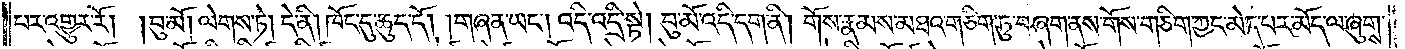པར་འགྱུར་རོ། །བུ་མོ། ལེགས་ཏེ། དེ་ནི། ཁོང་དུ་ཆུད་དོ། །གཞན་ཡང༌། འདི་འདྲི་སྟེ། བུ་མོ་འདི་དག་ནི། གོས་རྣམས་མཐའ་གཅིག་ཏུ་བཞག་ནས་གོས་གཅིག་ཀྱང་མེད་པར་མོད་ལ་ཞུགས་
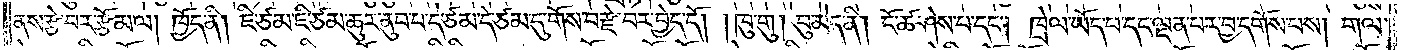ནས་རྩེ་བར་རྩོམ་ལ། ཁྱོད་ནི། ཇི་ཙམ་ཇི་ཙམ་ཆུར་ནུབ་པ་དེ་ཙམ་དེ་ཙམ་དུ་གོས་བརྫེ་བར་བྱེད་དོ། །ཁུ་གུ། བུ་མེད་ནི། ངོ་ཚ་ཤེས་པ་དང༌། ཁྲེལ་ཡོད་པ་དང་ལྡན་པར་བྱ་དགོས་ཕས། གལ་
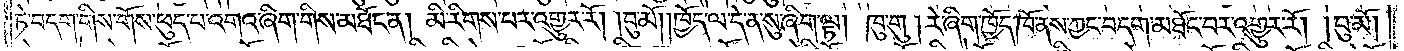ཏེ་བདག་གིས་གོས་ཕུད་པ་འགའ་ཞིག་གིས་མཐོང་ན། མི་རིགས་པར་འགྱུར་རོ། །བུ་མོ། ཁྱོད་ལ་དེ་ན་སུ་ཞིག་ལྟ། ཁུ་གུ། རེ་ཞིག་ཁྱོད་ཁོ་ནས་ཀྱང་བདག་མཐོང་བར་འགྱུར་རོ། །བུ་མོ།
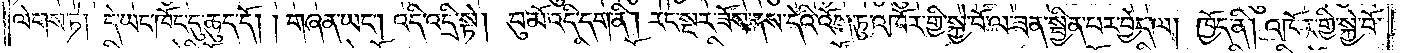ལེགས་ཏེ། དེ་ཡང་ཁོང་དུ་ཆུད་དོ། །གཞན་ཡང༌། འདི་འདྲི་སྟེ། བུ་མོ་འདི་དག་ནི། རང་སྔར་ཟོས་ནས་དེའི་འོག་ཏུ་འཁོར་གྱི་སྐྱེ་བོ་ལ་ཟན་སྦྱིན་པར་བྱེད་ལ། ཁྱོད་ནི། འཁོར་གྱི་སྐྱེ་བོ་
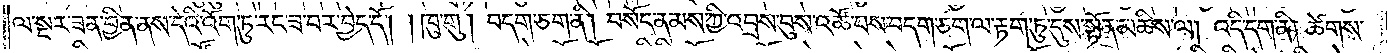ལ་སྔར་ཟན་བྱིན་ནས་དེའི་འོག་ཏུ་རང་ཟ་བར་བྱེད་དོ། །ཁུ་གུ། བདག་ཅག་ནི། བསོད་ནམས་ཀྱི་འབྲས་བུས་འཚོ་བས་བདག་ཅག་ལ་རྟག་ཏུ་དུས་སྟོན་མཆིས་ལ། འདི་དག་ནི། ཚེགས་
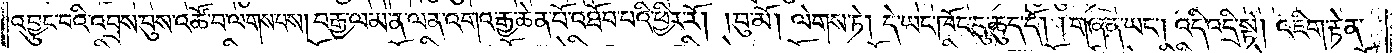འབྱུང་བའི་འབྲས་བུས་འཚོ་བ་ལགས་པས། བརྒྱ་ལམ་ན་ལན་འགའ་རྒྱ་ཆེན་པོ་འཐོབ་པའི་ཕྱིར་རོ། །བུ་མོ། ལེགས་ཏེ། དེ་ཡང་ཁོང་དུ་ཆུད་དོ། །གཞན་ཡང༌། འདི་འདྲི་སྟེ། འཇིག་རྟེན་
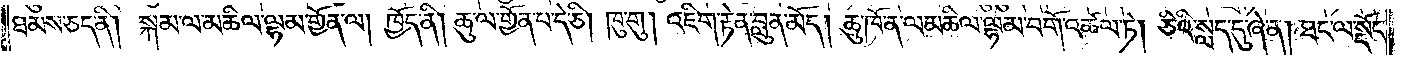ཐམས་ཅད་ནི། སྐམ་ལ་མཆིལ་ལྷམ་གྱོན་ལ། ཁྱོད་ནི། ཆུ་ལ་གྱོན་པ་དེ་ཅི། ཁུ་གུ། འཇིག་རྟེན་བླུན་མོད། ཆུ་ཁོ་ན་ལ་མཆིལ་ལྷམ་བགོ་འཚལ་ཏེ། ཅིའི་སླད་དུ་ཞེ་ན། ཐང་ལ་སྡོང་
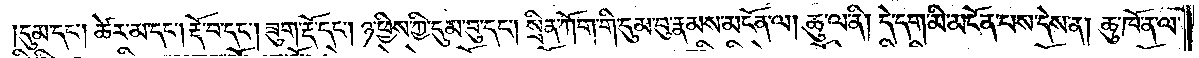དུམ་དང༌། ཚེར་མ་དང༌། རྡོ་བ་དང༌། ཟུག་རྡོ་དང༌། ཉ་ཕྱིས་ཀྱི་དུམ་བུ་དང༌། སྲིན་ཀོག་གི་དུམ་བུ་རྣམས་མངོན་ལ། ཆུ་ལ་ནི། དེ་དག་མི་མངོན་པས་དེས་ན། ཆུ་ཁོ་ན་ལ་
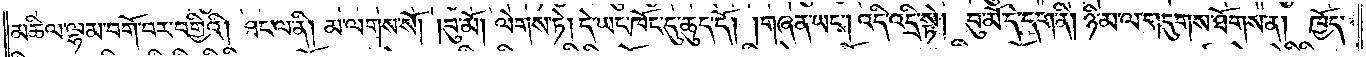མཆིལ་ལྷམ་བགོ་བར་བགྱིའི། ཐང་ལ་ནི། མ་ལགས་སོ། །བུ་མོ། ལེགས་ཏེ། དེ་ཡང་ཁོང་དུ་ཆུད་དོ། །གཞན་ཡང༌། འདི་འདྲི་སྟེ། བུ་མོ་དེ་དག་ནི། ཉི་མ་ལ་གདུགས་ཐོགས་ན། ཁྱོད་
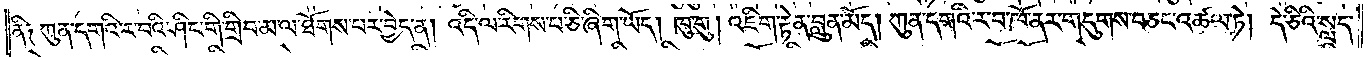ནི༑ ཀུན་དགའི་ར་བའི་ཤིང་གི་གྲིབ་མ་ལ་ཐོགས་པར་བྱེད་ན། འདི་ལ་རིགས་པ་ཅི་ཞིག་ཡོད། ཁུ་གུ། འཇིག་རྟེན་བླུན་མོད། ཀུན་དགའི་ར་བ་ཁོ་ནར་གདུགས་བཅང་འཚལ་ཏེ། དེ་ཅིའི་སླད་
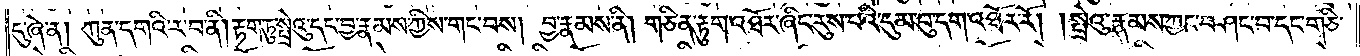དུ་ཞེ་ན། ཀུན་དགའི་ར་བ་ནི། རྟག་ཏུ་སྤྲེའུ་དང་བྱ་རྣམས་ཀྱིས་གང་བས། བྱ་རྣམས་ནི། གཅིན་རྟུག་འཐོར་ཞིང་རུས་པའི་དུམ་བུ་དག་འཐོར་རོ། །སྤྲེའུ་རྣམས་ཀྱང་བཤང་བ་དང་གཅི་
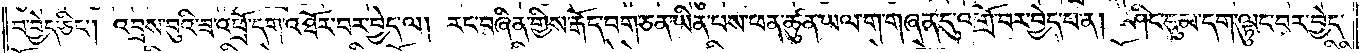བ་བྱེད་ཅིང༌། འབྲས་བུའི་ཟ་འཕྲོ་དག་འཐོར་བར་བྱེད་ལ། རང་བཞིན་གྱིས་རྒོད་བག་ཅན་ཡིན་པས་ཕན་ཚུན་ཡལ་ག་གཞན་དུ་འགྲོ་བར་བྱེད་པ་ན། ཤིང་དུམ་དག་ལྟུང་བར་བྱེད་
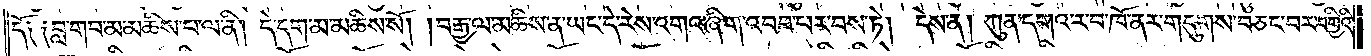དོ༑ ༑བླ་གབ་མ་མཆིས་པ་ལ་ནི། དེ་དག་མ་མཆིས་སོ། །བརྒྱ་ལ་མཆིས་ན་ཡང་དེ་རེས་འགའ་ཞིག་འབབ་པར་བས་ཏེ། དེས་ན། ཀུན་དགའ་ར་བ་ཁོ་ནར་གདུགས་བཅང་བར་བགྱིའི་
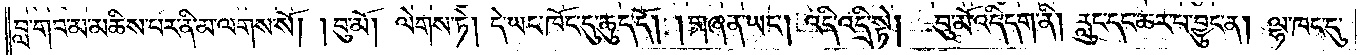བླ་གབ་མ་མཆིས་པར་ནི་མ་ལགས་སོ། །བུ་མོ། ལེགས་ཏེ། དེ་ཡང་ཁོང་དུ་ཆུད་དོ། །གཞན་ཡང༌། འདི་འདྲི་སྟེ། བུ་མོ་འདི་དག་ནི། རླུང་དང་ཆར་པ་བྱུང་ན། ལྷ་ཁང་དུ་
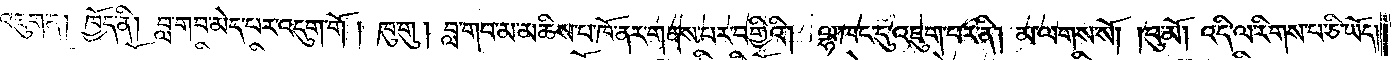འཇུག་ན། ཁྱོད་ནི། བླ་གབ་མེད་པར་འདུག་གོ། ཁུ་གུ། བླ་གབ་མ་མཆིས་པ་ཁོ་ནར་གནས་པར་བགྱིའི། ལྷ་ཁང་དུ་འཇུག་པར་ནི། མ་ལགས་སོ། །བུ་མོ། འདི་ལ་རིགས་པ་ཅི་ཡོད་
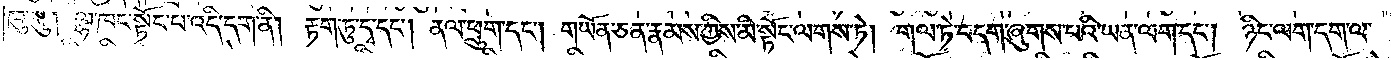ཁུ་གུ། ལྷ་ཁང་སྟོང་པ་འདི་དག་ནི། རྟག་ཏུ་དྭ་དང༌། ནལ་ཕྲུག་དང༌། གཡོན་ཅན་རྣམས་ཀྱིས་མི་སྟོང་ལགས་ཏེ། གལ་ཏེ་བདག་ཞུགས་པའི་ཡན་ལག་དང༌། ཉིད་ལག་དག་ལ་
